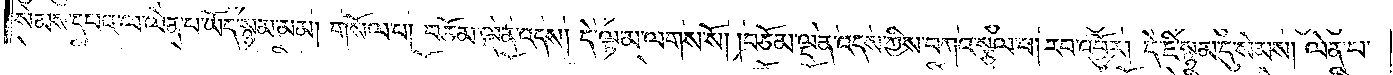སེམས་དཔའ་ལ་ལེན་པ་ཡོད་སྙམ་མམ། གསོལ་པ། བཅོམ་ལྡན་འདས། དེ་ལྟ་མ་ལགས་སོ། །བཅོམ་ལྡན་འདས་ཀྱིས་བཀའ་སྩལ་པ། རབ་འབྱོར། དེ་ཇི་སྙམ་དུ་སེམས། ལེན་པ་
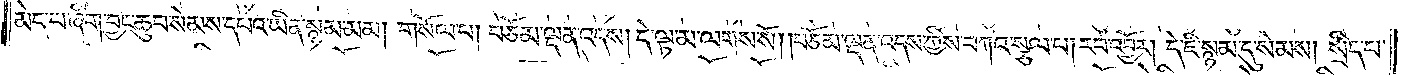མེད་པ་ཞིག་བྱང་ཆུབ་སེམས་དཔའ་ཡིན་སྙམ་མམ། གསོལ་པ། བཅོམ་ལྡན་འདས། དེ་ལྟ་མ་ལགས་སོ། །བཅོམ་ལྡན་འདས་ཀྱིས་བཀའ་སྩལ་པ། རབ་འབྱོར། དེ་ཇི་སྙམ་དུ་སེམས། སྲིད་པ་
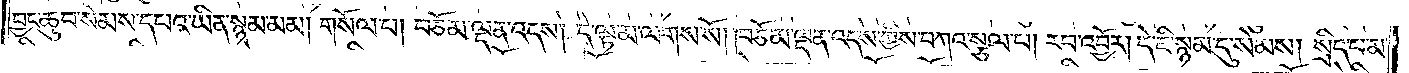བྱང་ཆུབ་སེམས་དཔའ་ཡིན་སྙམ་མམ། གསོལ་པ། བཅོམ་ལྡན་འདས། དེ་ལྟ་མ་ལགས་སོ། །བཅོམ་ལྡན་འདས་ཀྱིས་བཀའ་སྩལ་པ། རབ་འབྱོར། དེ་ཇི་སྙམ་དུ་སེམས། སྲིད་པ་མ་
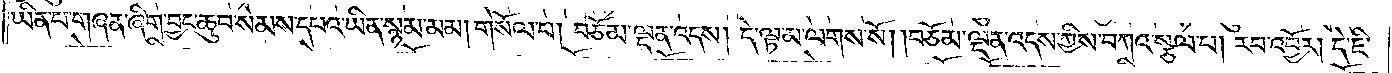ཡིན་པ་གཞན་ཞིག་བྱང་ཆུབ་སེམས་དཔའ་ཡིན་སྙམ་མམ། གསོལ་པ། བཅོམ་ལྡན་འདས། དེ་ལྟ་མ་ལགས་སོ། །བཅོམ་ལྡན་འདས་ཀྱིས་བཀའ་སྩལ་པ། རབ་འབྱོར། དེ་ཇི་
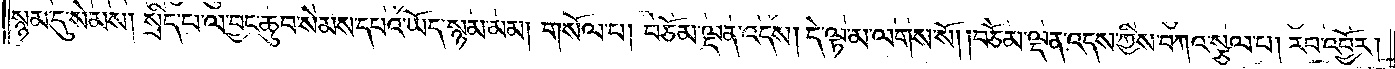སྙམ་དུ་སེམས། སྲིད་པ་ལ་བྱང་ཆུབ་སེམས་དཔའ་ཡོད་སྙམ་མམ། གསོལ་པ། བཅོམ་ལྡན་འདས། དེ་ལྟ་མ་ལགས་སོ། །བཅོམ་ལྡན་འདས་ཀྱིས་བཀའ་སྩལ་པ། རབ་འབྱོར།
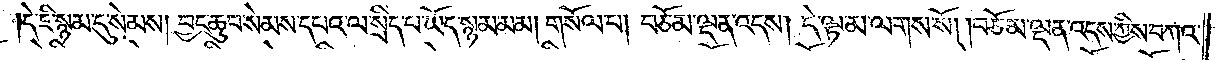དེ་ཇི་སྙམ་དུ་སེམས། བྱང་ཆུབ་སེམས་དཔའ་ལ་སྲིད་པ་ཡོད་སྙམ་མམ། གསོལ་པ། བཅོམ་ལྡན་འདས། དེ་ལྟ་མ་ལགས་སོ། །བཅོམ་ལྡན་འདས་ཀྱིས་བཀའ་
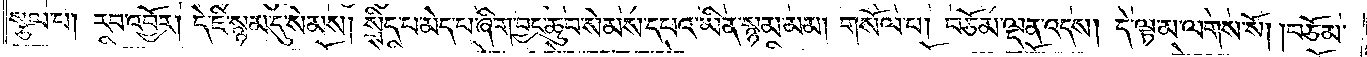སྩལ་པ། རབ་འབྱོར། དེ་ཇི་སྙམ་དུ་སེམས། སྲིད་པ་མེད་པ་ཞིག་བྱང་ཆུབ་སེམས་དཔའ་ཡིན་སྙམ་མམ། གསོལ་པ། བཅོམ་ལྡན་འདས། དེ་ལྟ་མ་ལགས་སོ། །བཅོམ་
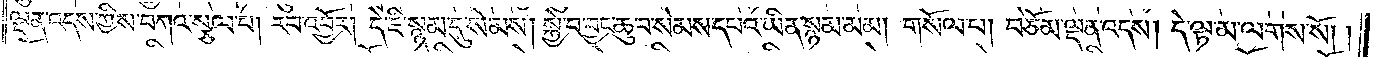ལྡན་འདས་ཀྱིས་བཀའ་སྩལ་པ། རབ་འབྱོར། དེ་ཇི་སྙམ་དུ་སེམས། སྐྱེ་བ་བྱང་ཆུབ་སེམས་དཔའ་ཡིན་སྙམ་མམ། གསོལ་པ། བཅོམ་ལྡན་འདས། དེ་ལྟ་མ་ལགས་སོ། །
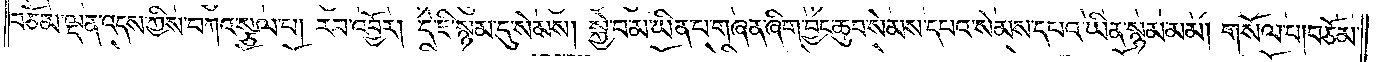བཅོམ་ལྡན་འདས་ཀྱིས་བཀའ་སྩལ་པ། རབ་འབྱོར། དེ་ཇི་སྙམ་དུ་སེམས། སྐྱེ་བ་མ་ཡིན་པ་གཞན་ཞིག་བྱང་ཆུབ་སེམས་དཔའ་སེམས་དཔའ་ཡིན་སྙམ་མམ། གསོལ་པ། བཅོམ་
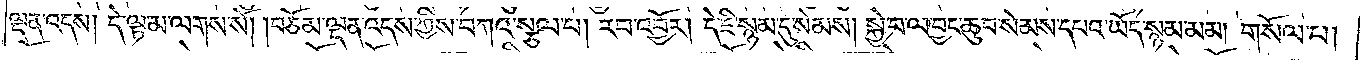ལྡན་འདས། དེ་ལྟ་མ་ལགས་སོ། །བཅོམ་ལྡན་འདས་ཀྱིས་བཀའ་སྩལ་པ། རབ་འབྱོར། དེ་ཇི་སྙམ་དུ་སེམས། སྐྱེ་བ་ལ་བྱང་ཆུབ་སེམས་དཔའ་ཡོད་སྙམ་མམ། གསོལ་པ།
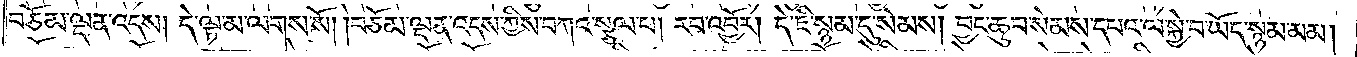བཅོམ་ལྡན་འདས། དེ་ལྟ་མ་ལགས་སོ། །བཅོམ་ལྡན་འདས་ཀྱིས་བཀའ་སྩལ་པ། རབ་འབྱོར། དེ་ཇི་སྙམ་དུ་སེམས། བྱང་ཆུབ་སེམས་དཔའ་ལ་སྐྱེ་བ་ཡོད་སྙམ་མམ།
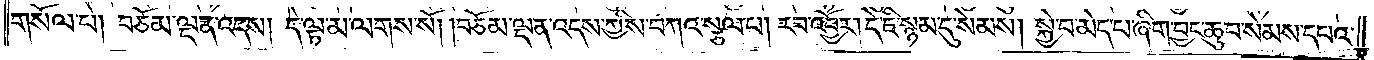གསོལ་པ། བཅོམ་ལྡན་འདས། དེ་ལྟ་མ་ལགས་སོ། །བཅོམ་ལྡན་འདས་ཀྱིས་བཀའ་སྩལ་པ། རབ་འབྱོར། དེ་ཇི་སྙམ་དུ་སེམས། སྐྱེ་བ་མེད་པ་ཞིག་བྱང་ཆུབ་སེམས་དཔའ་
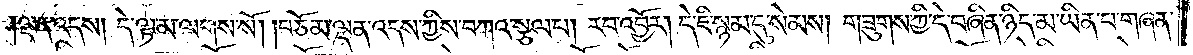ལྡན་འདས། དེ་ལྟ་མ་ལགས་སོ། །བཅོམ་ལྡན་འདས་ཀྱིས་བཀའ་སྩལ་པ། རབ་འབྱོར། དེ་ཇི་སྙམ་དུ་སེམས། གཟུགས་ཀྱི་དེ་བཞིན་ཉིད་མ་ཡིན་པ་གཞན་
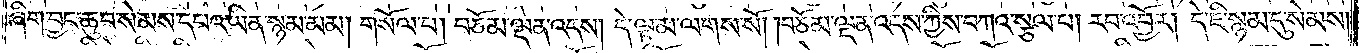ཞིག་བྱང་ཆུབ་སེམས་དཔའ་ཡིན་སྙམ་མམ། གསོལ་པ། བཅོམ་ལྡན་འདས། དེ་ལྟ་མ་ལགས་སོ། །བཅོམ་ལྡན་འདས་ཀྱིས་བཀའ་སྩལ་པ། རབ་འབྱོར། དེ་ཇི་སྙམ་དུ་སེམས།
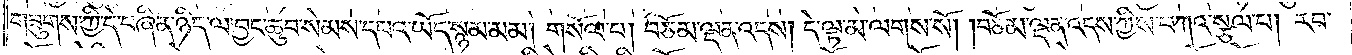གཟུགས་ཀྱི་དེ་བཞིན་ཉིད་ལ་བྱང་ཆུབ་སེམས་དཔའ་ཡོད་སྙམ་མམ། གསོལ་པ། བཅོམ་ལྡན་འདས། དེ་ལྟ་མ་ལགས་སོ། །བཅོམ་ལྡན་འདས་ཀྱིས་བཀའ་སྩལ་པ། རབ་
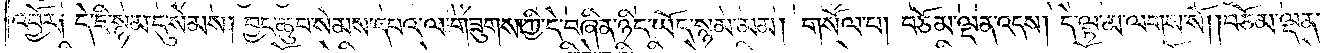འབྱོར༑ དེ་ཇི་སྙམ་དུ་སེམས། བྱང་ཆུབ་སེམས་དཔའ་ལ་གཟུགས་ཀྱི་དེ་བཞིན་ཉིད་ཡོད་སྙམ་མམ། གསོལ་པ། བཅོམ་ལྡན་འདས། དེ་ལྟ་མ་ལགས་སོ། །བཅོམ་ལྡན་
